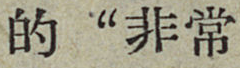的“非常
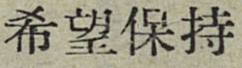希望保持
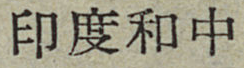印度和中
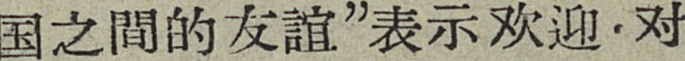国之間的友誼”表示欢迎，对
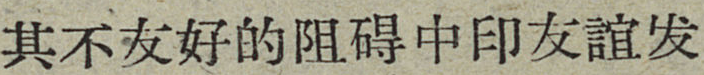其不友好的阻碍中印友誼发
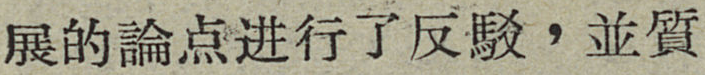展的論點进行了反駁，並質
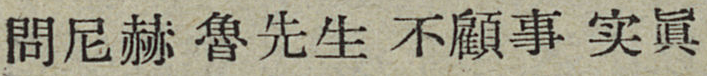問尼赫魯先生不顧事实眞
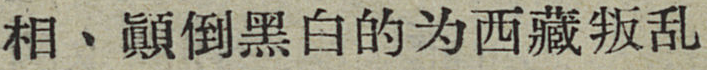相、顚倒黑白的为西藏叛乱
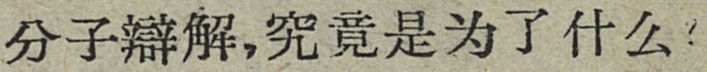分子辯解，究竟是为了什么？
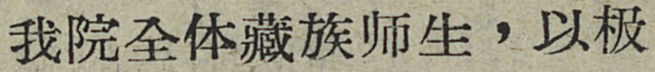我院全体藏族师生，以极
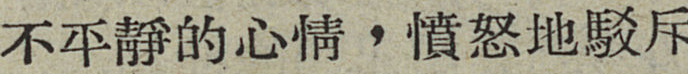不平靜的心情，憤怒地駁斥
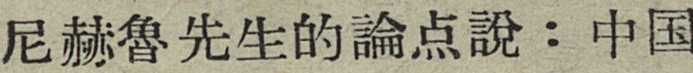尼赫魯先生的論点說：中国
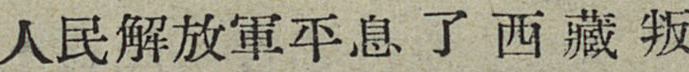人民解放軍平息了西藏叛
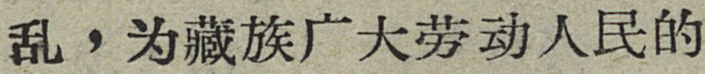乱，为藏族广大劳动人民的
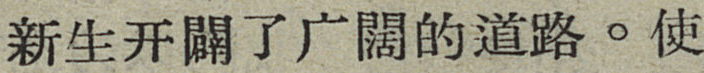新生开闢了广闊的道路。使
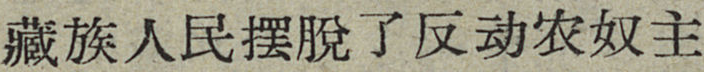藏族人民摆脫了反动农奴主
